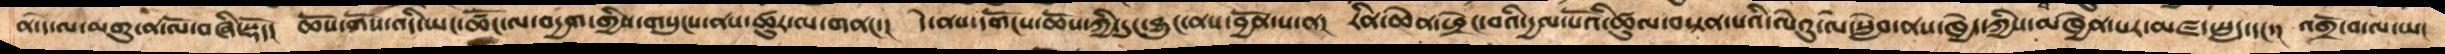ན་དེ་ལ་མགུ་ན་ལོ་བཞི་སྡོད།  ཆོས་གོས་འདི་ཡང་ཚོང་ལ་བདྱག་གྱིས་གསུངས་ནས་ཚུར་ལ་གནང་།  དེ་ནས་དགོངས་ཆོས་ཀྱི་དུང་བྱུང་ནས་བྱོན་པ་ན།  རིན་ཆེན་ཕྲེང་བའི་དྱལ་པོའི་ཚུལ་བསྟན་པའི་ལེའུ་ལ་སླེབ་ནས་ཁྱེད་ཀྱིས་མཁྱེན་པར་མཛད་སླད་དང་།  འགྲོ་བ་ལ་ཡང
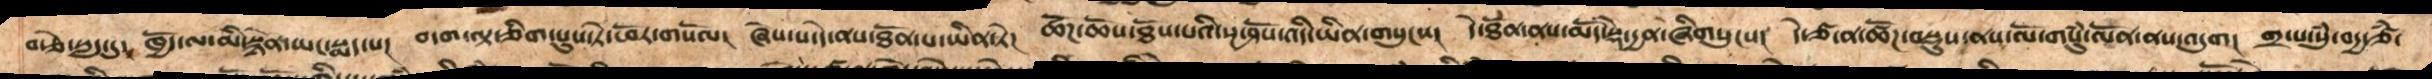བརྩེ་སླད་དུ་  ཁྱོད་ལ་མི་སྙེན་ཡང་སྨད་པ།  བདག་ལྟ་ཅིག་པུས་ཏེ་ཕོར་གསོལ།  ཞེས་པ་དེ་ནས་ཐོན་པ་ཡིན་ཏེ།  ཚོཌ་ཆོས་ཐོས་པའི་སྔ་ཤོས་འདི་ཡིན་གསུངས།  དེ་ཐོན་ནས་མདོ་སྡེ་དྱན་ཞིགསུངས།  དེ་ཙ་ན་ཚོཌ་བསྡུས་ནས་ལོ་གསུཾ་ལོན་ནས་འདུག།  གྲ་པ་སུཾ་བདྱ་ཙཾ་
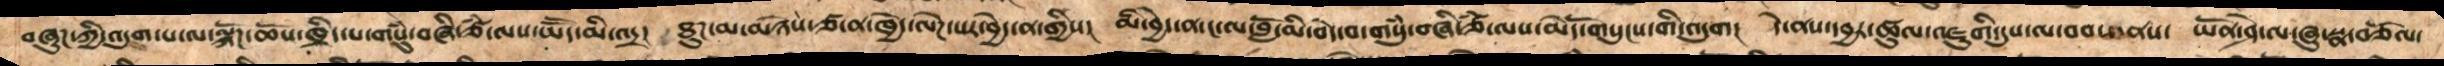བཞུཌ་ཀྱི་འདུག་པ་ལ་ལྐོཌ་ཆོས་ཁྲིད་པ་གསུཾ་བཞི་ཙཾ་ལས་ཡཽད་མི་འདྲ།  ཐུཌ་མ་མཉེས་ཙ་ན་ཁྱེད་ལེཌ་པར་བྱེད་ན་གྱིས།  མི་བྱེད་ན་ང་ལ་བློ་མི་བདེ་བ་གསུཾ་བཞི་ཙཾ་ལས་མེདོ་གསུངས་གི་འདུག།  དེ་ནས་དབྱར་ཚུལ་འཇུགི་དུས་ལ་བབས་ནས་  ཡོན་ཤེ་ལ་ཞུ་སྣ་བཅོལ་
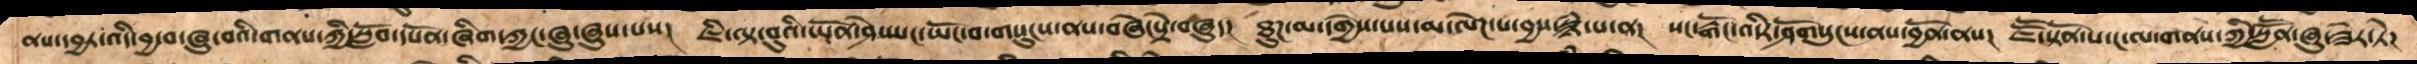ནས་དབྱར་འདི་བྱ་བ་ཞུ་བའི་གནས་ཀྱི་སློབ་དཔོན་ཞིག་ཀྱང་ཞུ་ཞུས་པས།  ཇི་ལྟ་བུའི་ཡོན་ཤེ་ཡང་ཡོང་བ་གསུངས་ནས་བཞེངསྲེ་བཞུད།  ཐུཌ་མ་དགྱེས་པས་མ་ལེཌ་པ་བྱས་སྙཾ་པ་ན།  སང་རྒོང་འདིར་ཤོགསུངས་ནས་བྱོན་ནས།  ཇཽ་སྟོན་པ་ང་ལ་གནས་ཀྱི་སླཽན་ཞུ་ཟེར་ཏེ།
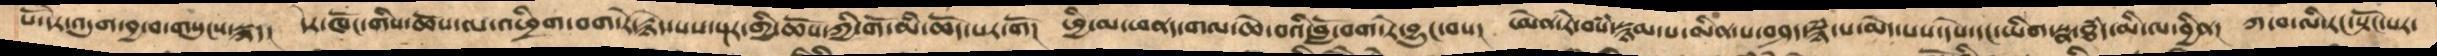པོ་དེར་འདུག་བྱ་བ་གསུངས་སྐད།  དེར་ཁོང་གིས་ཆོས་ལ་འཕྲིག་བག་རེ་རྙེད་པས་སྔར་གྱི་ཆོས་ཀྱི་གོ་མི་ཆོད་པར་གོ།  ཕྱི་མ་ཕནད་གལ་ཆེ་བའི་བློ་བག་རེ་བྱུང་བས།  ཨེན་ཏེ་བསཾ་སྙམ་པ་མིན་པ་བཤད་སྙཾ་པ་མེད་པས་དཔེ་དང་ཡིག་སྣ་ཐཾད་མི་ལ་བྱིན།  ཀ་བ་ལི་རང་སྟོང་པར་
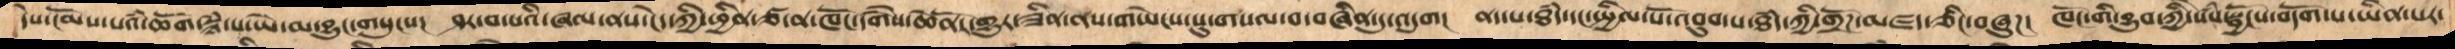དེས་ངོམས་པའཾ་ཆོག་སྙཾ་པ་ཡེ་མ་བྱུང་གསུངས།   ཤར་བ་པའི་ཞལ་ནས་ངེད་ཀྱི་ཕྱིན་ཙ་ན་ཁོང་དགཻས་ཆེནོར་གྱུར་ཟིན་ནས་གཡེངས་སུ་གསལ་བ་བཞིན་དུ་འདུག།  ནད་པ་ཐཾད་དང་སྤྱིལ་པོ་འབུབ་པ་ཐཾད་ཀྱི་གྲོཌ་མཛད་ཅིང་བཞུཌ།  ཁོང་གི་བྱུབ་ཀྱི་སེཾས་སྦྱོངས་བདོག་པ་ཡིན་པར་
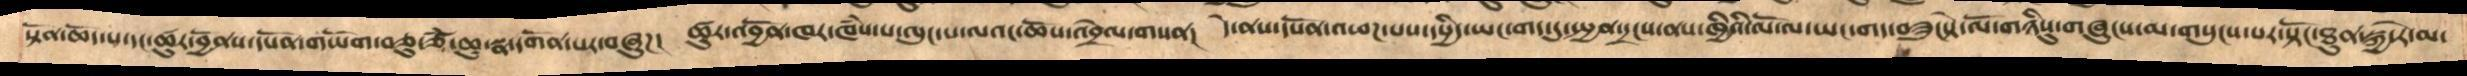སྟོན་ཆོད་པ་དང་ཚུར་བྱོནས་དཔོན་གཡོག་བཅུ་ཙཾ་ཆུ་སྣ་དགོན་པར་བཞུཌ།   ཚུར་འབྱོན་ཁར་ཁཾས་པ་ལུང་པ་ལའང་ཆོས་འབྲེལ་གསན།  དེ་ནས་དཔོན་འཕཌ་པས་དཔྱིད་ཡང་གད་དུ་སྤྱན་དྲངས་ནས་ཁྱིའི་ལོ་ལ་ཡང་གད་བཟུངསྟེ་ལོ་གཉིསུ་གཞུངས་མ་གསུངས་པར་སྟོང་ཐུན་སྐྱ་རེ་མ་
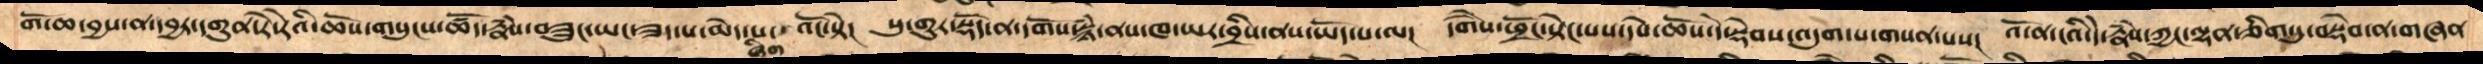གོ་ཆ་བྱས་ན་དབྱར་དགུན་རེ་རེའི་ཆོས་གསུངས་ཚོད་རྣཾས་བཟུང་ཡང་ཟད་པ་མེད་པ་ཞིག་འོང་སྟེ།  སུ་གུར་སྡོད་ན་དགོས་སྙཾ་ནས་ཁ་ཡར་བྲིས་ནས་ཡོད་པ་ལ།  དགཻས་ཕྲོང་སྟེང་པས་དཔེ་ཆསོ་དེ་སྡོབས་འདུག་པ་གསན་པས།  འོ་ན་ངའི་དེ་རྣཾས་ཀྱང་ལྷན་ཅིག་དུ་བསྡེབ་ན་གཞན
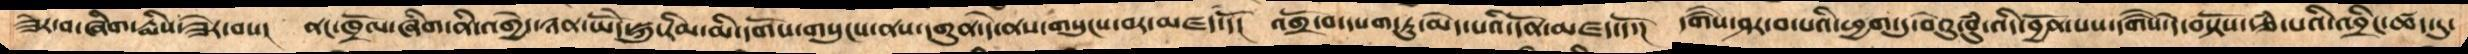ཟེར་བ་ཞིག་རྨིས་ཟེར་བས།  ནང་ཁྲོལ་ཞིག་ནི་འགྱེད་ཉེན་ཡོདེསྐུ་རིམ་མི་དགོས་གསུངས་ནས་དགུན་དེ་ནས་གསུངས་བར་མཛད་དོ།  འགྲོ་བ་དཔག་ཏུ་མེད་པའི་དོན་མཛད་དོ།  དགཻས་ཤར་བ་པའི་ཕྱག་ཏུ་བེའུ་བུཾ་འདི་བྱོན་པས་དགཻས་དེ་བསྟོས་རྩཾ་པའི་འབྲིང་ཚད་དུ་
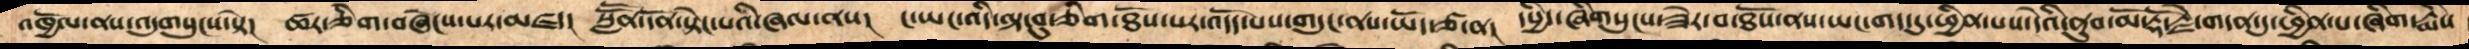འཁྱོལ་ནས་འདུགསུངས་སྟེ།  ཚར་ཅིག་བཞེངས་པར་མཛད།  སླཽན་དོན་སྟེང་པའི་ཞལ་ནས། ང་ཡང་འདི་ལྟ་བུ་ཅིག་ཐོས་པར་འདོད་པས་གདུང་ནས་ཡོད་ཙ་ན།  དཔྱིད་ཞིགསུངས་ཟེར་བ་ཐོས་ནས་ཡང་གད་དུ་ཕྱིན་པས་དེའི་ནུབ་མོ་རྡོ་རྗེ་གདན་དུ་ཕྱིན་པ་ཞིག་རྨིས
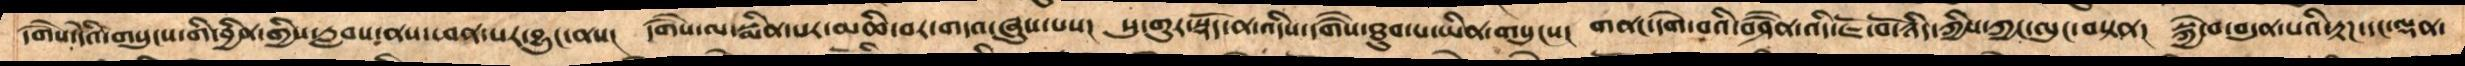དགཻས་དེའི་གསུངས་གི་བྱིན་གྱིས་རླབས་ནས་ཕན་པར་བྱུང་ནས།  དགཻས་ལ་སྨིན་པར་མཆི་བར་གདའ་ཞུས་པས།  སུ་གུར་སྡོད་ན་འདིས་དགཻས་ཐུབ་པ་ཡིན་གསུངས།  གནང་དགེ་བའི་བཤཻན་འདི་ཇོ་བོ་ཉིད་ཀྱིས་ཀྱང་ལུང་བསྟན།  སྐྱེ་བ་བདུན་པའི་རྟཌ་དང་ལྡན་
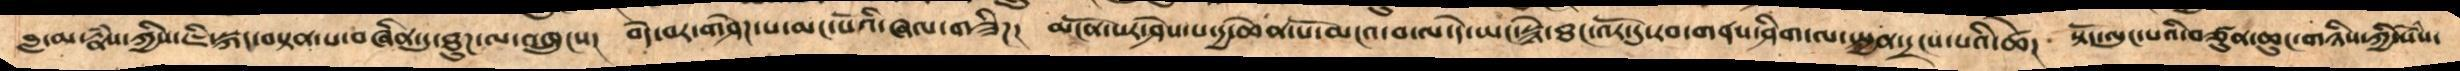བླ་མ་རྣཾས་ཀྱིས་ཇི་སྐད་བསྟན་པ་བཞིན་དུ་ཐུཌ་ལ་འཁྲུངས།   བདེ་བར་གཤེཌ་པ་མང་པོའི་ཞལ་གཟིཌ།  མངོན་པར་ཤེས་པ་དྱ་ཆེན་པོ་མངའ་བ་ལ་དེ་ཡང་སྙེ་ཐང་འོར་དུ་རབ་གནས་ཤིག་ལ་སྤྱན་དྲངས་པའི་ཚེ།  སྟོད་ལུང་པའི་བཙུན་ཆུང་གཉིས་ཀྱི་སེསཾ་
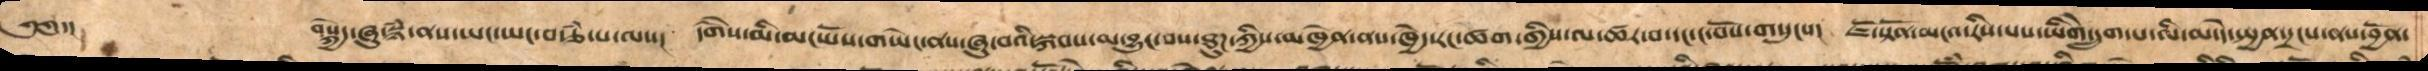༄༅་།       བསྐྱེད་ཞུ་སྙཾ་ནས་ཡང་ཡང་བརྩཾ་པ་ལས།   དགཻས་མི་མང་པོས་གཡེང་ནས་ཞུ་བའི་སྐབས་མ་བྱུང་བས་ཐུཌ་ཀྱིས་མཁྱེན་ནས་ཁྱེད་རང་ཚག་གྱིས་ལ་ཚར་བ་དང་ང་བོས་གསུངས།  ཇོ་སྟོན་མངའ་རིས་པས་ཡིགེ་དྲུག་པ་ལི་མ་དེ་སྤྱན་དྲངས་ནས་བྱོན་
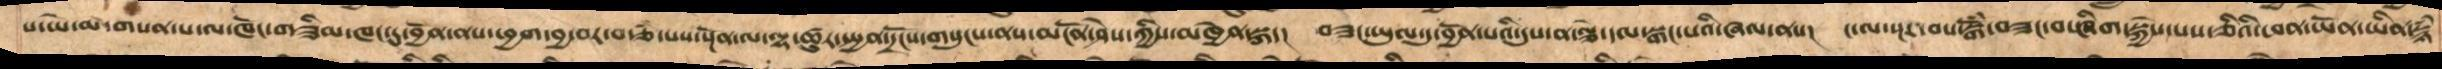པ་ཡེ་མ་གསན་པ་ལ་ཁོང་གཟིམ་ཁང་དུ་བྱོན་ནས་ཕྱག་བྱ་བར་བརྩཾ་པས་སྔོན་ལ་ལྷ་ཚུར་སྤྱན་དྲོངས་གསུངས་ནས་མངོན་ཤེས་ཀྱིས་མཁྱེན་སྐད།  བཟང་ཡུལ་དུ་བྱོན་པའི་དུས་ན་ལྕེ་དལ་སྒང་པའི་ཞལ་ནས།   ང་ལ་སྔར་བས་སྒོཾ་བཟང་བ་ཞིག་སྐྱེས་པས་ཅིའི་ཕན་ཡོན་ཡིན་སྙཾ
